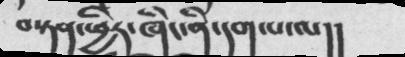བསྟན་ཕྱིར་ཞིང་ནི་དག་པ་པ་ལ།།
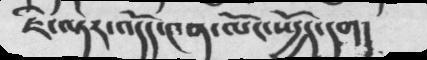ཇི་ལྟར་འདོད་༤ན་ལོང་སྤྱོད་དག།
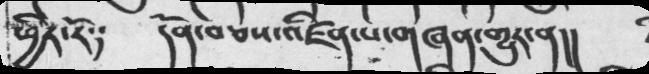ཕྱིར་རོ༴     དོན་བཅས་འཛིན་པ་གཞན་གྱུར་ན།།
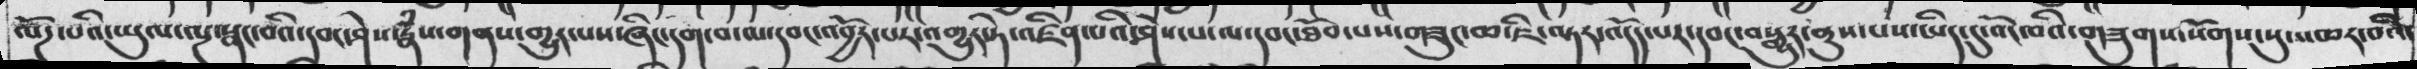ལོཌ་པའི་ཡུལ་ལྔ་སྣང་བའི་དབང་ཤེས་རྣཾས་གནས་གྱུར་པས་ཞིང་དག་བ་ལ་དབང་འབྱོར་པར་འགྱུར་ཏེ་འཛིན་པའི་ཤེས་པ་ལ་དབང་ཐོབ་པས་གཟུང་ཆ་ཇི་ལྟར་འདོད་པར་དབང་བསྒྱུར་ནུས་པས་ཡིད་དུ་འོང་བའི་གཟུགས་སོགས་སུ་འཆར་བའི་
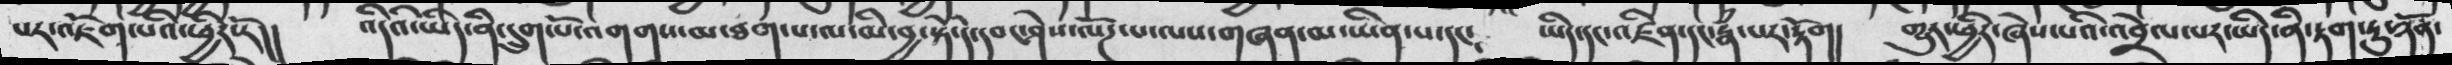པར་འཇོག་པའི་ཕྱིར་རོ།།   འདིའི་ཡིད་ནི་དྲུག་པོ་འགགས་མ་ཐག་པ་ལ་མི་བྱ་སྟེ་དེ་དབང་ཤེས་ལོཌ་པ་ལས་གཞན་མ་ཡིན་པ་དང༴   ཡིད་དང་འཛིན་དང་རྣཾ་པར་རྟོག།   གྱུར་ཕྱིར་ཞེས་པའི་འབྲེལ་པར་ཡིད་ནི་རྟག་ཏུ་ཉོན་
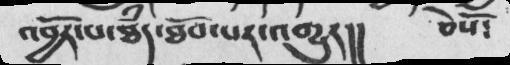འབྱར་པ་ཐཾད་ཐོབ་པར་འགྱུར།།         ཅེསསོ༴
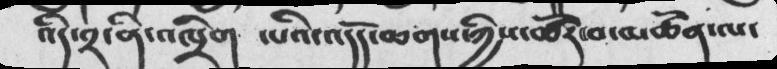འདི་༢་ནི་འཁྲིག  ་པའི་འདོད་ཆགས་ཀྱིས་ཚོར་བ་མཚོན་ལ་
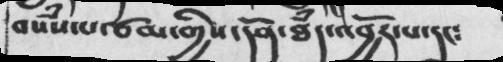བསཾས་པ་ཙམ་གྱིས་དོན་ཐྃད་འབྱོར་པ་དང༴
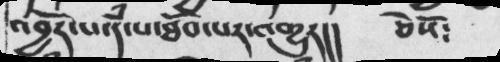འབྱོར་པ་དཾ་པ་ཐོབ་པར་འགྱུར།།  ཅེསོ༴
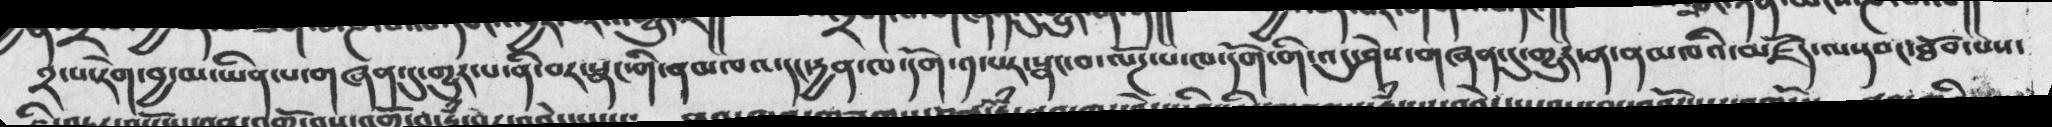༢་པ་རེག་བྱ་མ་ཡིན་པ་གཞན་དུ་གྱུར་པ་ནི་བར་སྣང་གི་ནམཁའ་དང་དྱན་ཁ་དོག་༡ པར་སྣང་བ་ལོཌ་པ་གི་འདུ་ཤེས་གཞན་དུ་གྱུར་ན་ནམཁའི་མཛོད་ལ་དབང་ཐོབ་པས་
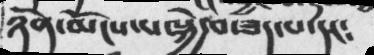ཉོན་མོངས་པ་སྐྱེ་བ་ཟད་པ་དང༴
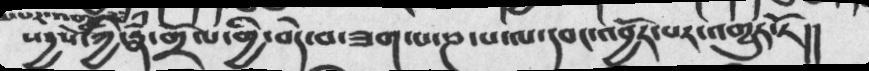སདྱས་ཀྱི་རྣཾ་གྲོལ་གྱི་བདེ་བ་ཟག་པ་ཎ་པ་ལ་དབང་འབྱོར་པར་འགྱུར་རོ།།
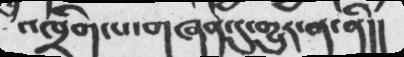འཁྲིག་པ་གཞན་དུ་གྱུར་ན་ནི།།
